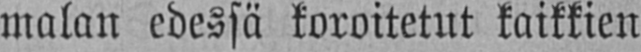malan edessä koroitetut kaikkien
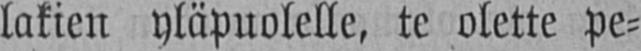lakien yläpuolelle, te olette pe-
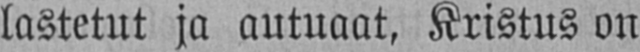lastetut ja autuaat, Kristus on
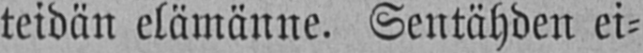teidän elämänne. Sentähden ei-
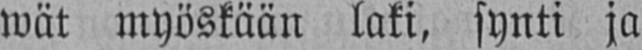wät myöskään laki, synti ja
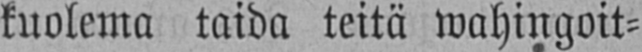kuolema taida teitä wahingoit-
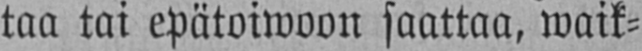taa tai epätoiwoon saattaa, waik-
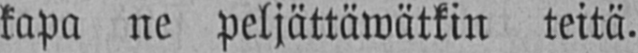kapa ne peljättäwätkin teitä.
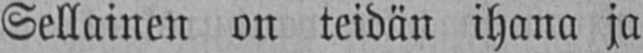Sellainen on teidän ihana ja
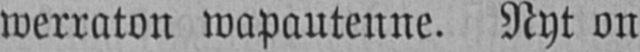werraton wapautenne. Nyt on
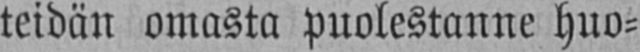teidän omasta puolestanne huo-
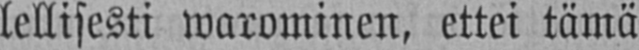lellisesti warominen, ettei tämä
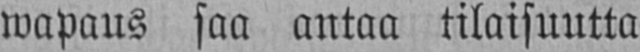wapaus saa antaa tilaisuutta
